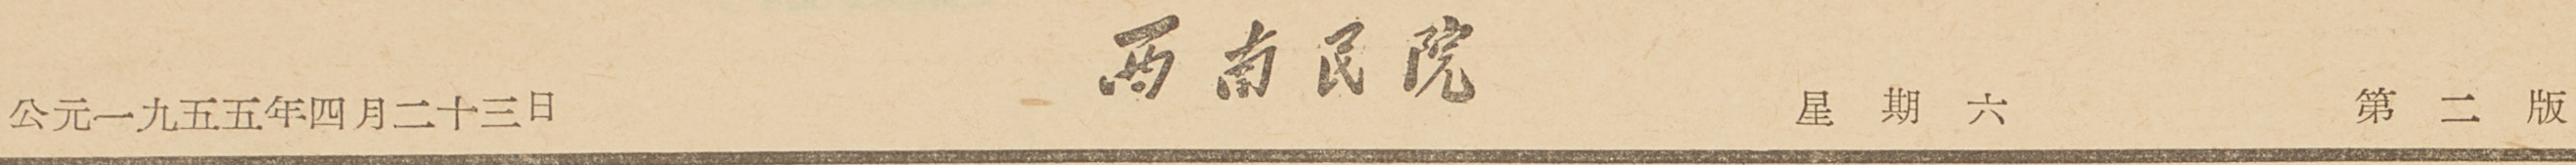公元一九五五年四月二十三日 西南民院 星期六 第二版
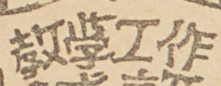教學工作
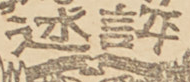述評
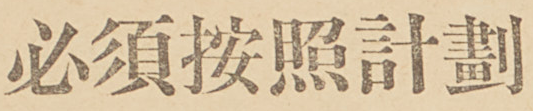必須按照計劃
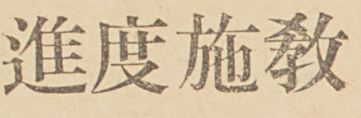進度施敎
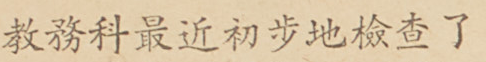教務科最近初步地檢查了
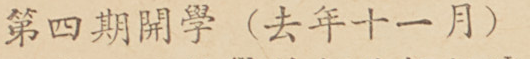第四期開學（去年十一月）
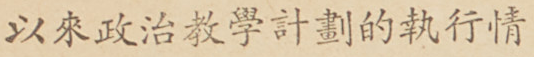以來政治教學計劃的執行情
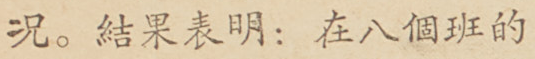況。結果表明：在八個班的
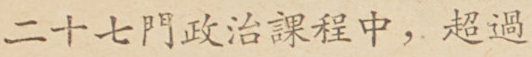二十七門政治課中，超過
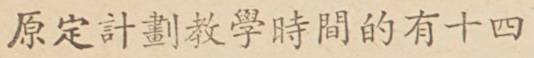原定計劃教學時間的有十四
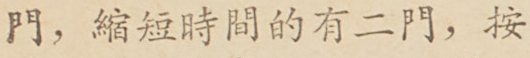門，縮短時間的有二門，按
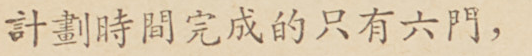計劃時間完成的只有六門，
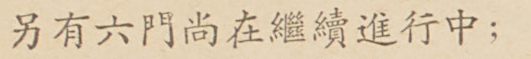另有六門尚在繼續進行中；
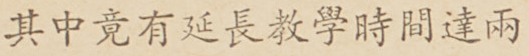其中竟有延長教學時間達兩
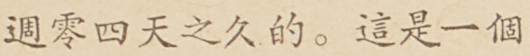週零四天之久的。這是一個
